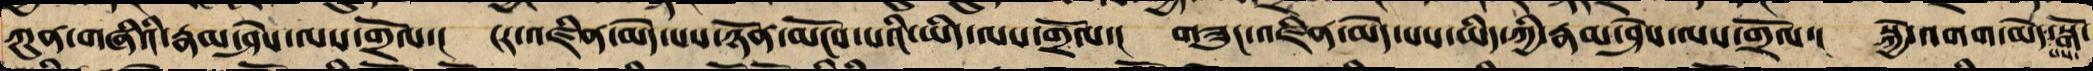ཀུན་གཞིའི་རྣམ་ཤེས་ལས་གྲོལ་། ངར་འཛིན་མེད་པས་ཉོན་མོངས་པའི་ཡིད་ལས་གྲོལ་། གཟུང་འཛིན་མེད་པས་ཡིད་ཀྱི་རྣམ་ཤེས་ལས་གྲོལ་། སྐྱེ་འགག་མེད་པས་སྒོ་
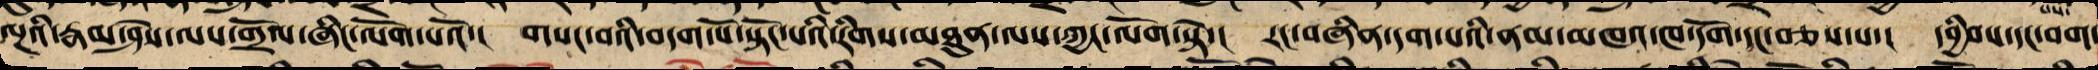ལྔའི་རྣམ་ཤེས་ལས་གྲོལ་ཞིང་ལོག་པའོ་། གསང་བའི་བདག་པོ་སྟོང་པའི་རིགས་མཐུན་ལས་ཀྱང་ལོག་སྟེ་། རང་བཞིན་དག་པའི་ནམ་མཁའ་ཁ་དོག་དང་བཅས་པ་། དབྱིབས་དང་བག་
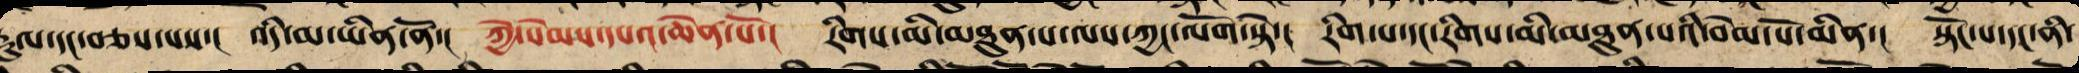རྡུལ་དང་བཅས་པས་། འདི་མ་ཡིན་ནོ་། ཀྱེ་སེམས་དཔའ་ཆེན་པོ་། རིགས་མི་མཐུན་པ་ལས་ཀྱང་ལོག་སྟེ་། རིག་པ་དང་རིགས་མི་མཐུན་པས་བེམ་པོ་མིན་། སྟོང་པ་དང་ནི་
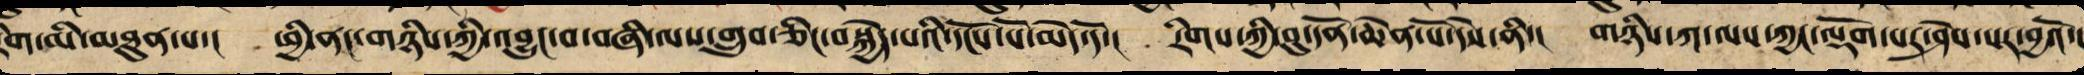རིག་མི་མཐུན་པས་། ཕྱི་ནང་གཉིས་ཀྱི་འབྱུང་བ་བཞི་ལས་གྲུབ་ཅིང་བསྐྱེད་པའི་དངོས་པོ་མེད་དོ་། རིགས་ཀྱི་བུ་དོན་ཆེན་པོ་དེས་ནི་། གཉིས་ཀ་ལས་ཀྱང་ལྡོག་པ་ཤེས་པར་བྱའོ་།
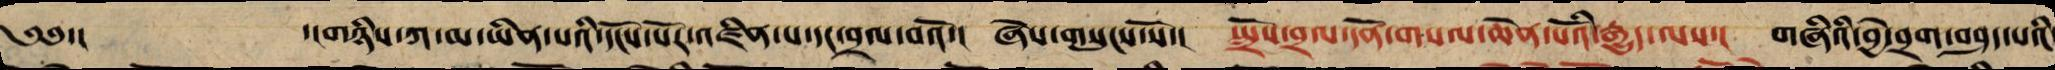༄༅་།  ་།གཉིས་ཀ་མ་ཡིན་པའི་དངོས་པོར་འཛིན་པ་དང་བྲལ་བའོ་། ཞེས་གསུངས་སོ་། སྤྲོས་བྲལ་དོན་གསལ་ཆེན་པོའི་རྒྱུད་ལས་། གཞིའི་བྱེ་བྲག་བཤད་པའི
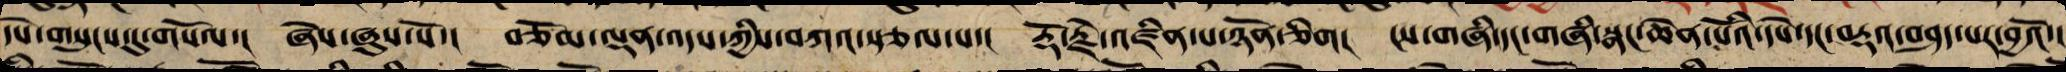དཔེ་གསུངས་དུ་གསོལ་། ཞེས་ཞུས་སོ་། བཅོམ་ལྡན་འདས་ཀྱིས་བཀའ་སྩལ་པ་། རྡོ་རྗེ་འཛིན་པ་ཁྱོད་ཉོན་ཅིག། ངས་གཞི་དང་གཞི་སྣང་ཆེན་པོ་དཔེ་དང་བརྡས་བཤད་པར་བྱའོ་།
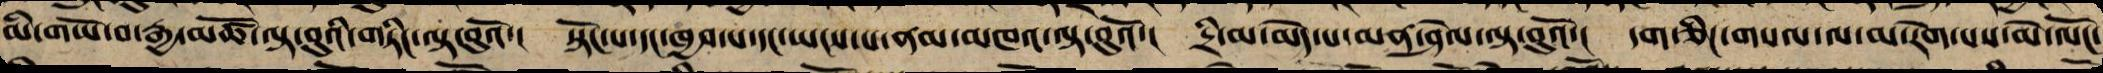མི་གཡོ་བ་རྒྱ་མཚོ་ལྟ་བུའི་གཏིང་ལྟ་བུའོ་། སྟོང་པ་དང་ཁྱབ་པ་དང་ཡངས་པ་ནམ་མཁའ་ལྟ་བུའོ་། དྲི་མ་མེད་པ་མན་ཤེལ་ལྟ་བུའོ་། དག་ཅིང་གསལ་ལ་མ་རེག་པས་མེ་ལོང་
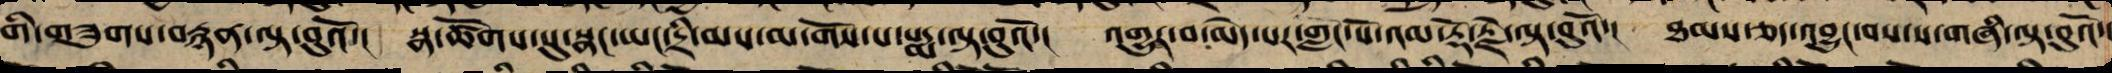གི་གཟུགས་བརྙན་ལྟ་བུའོ་། སྣ་ཚོགས་སུ་སྣང་ཡང་དྲི་མས་མ་གོས་པ་པདྨ་ལྟ་བུའོ་། འགྱུར་བ་མེད་པ་གླང་པོ་འམ་རྡོ་རྗེ་ལྟ་བུའོ་། ཐམས་ཅད་འབྱུང་བས་ས་གཞི་ལྟ་བུའོ་།
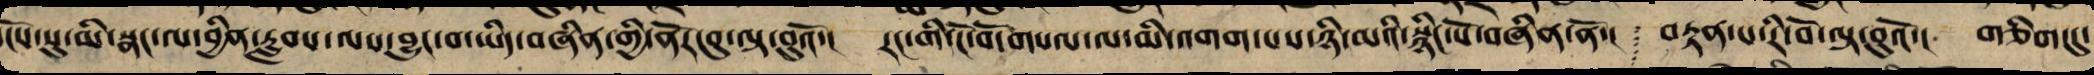ངོས་སུ་མི་སྣང་ལ་བྱིན་རླབས་ལས་འབྱུང་བ་ཡིད་བཞིན་གྱི་ནོར་བུ་ལྟ་བུའོ་། རང་གི་ངོ་བོ་གསལ་ལ་མི་འགག་པ་ཉི་མའི་སྙིང་པོ་བཞིན་ནོ་། བརྟན་པ་རི་བོ་ལྟ་བུའོ་། གཅིག་དུ་
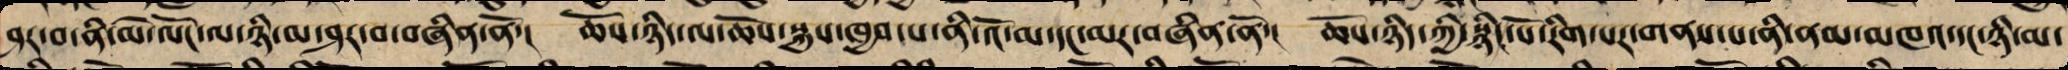ཤར་བ་ནི་མེ་ལོང་ལ་ཉི་མ་ཤར་བ་བཞིན་ནོ་། ཆོས་ཉིད་ལ་ཆོས་སྐུས་ཁྱབ་པ་ནི་འོ་མ་དང་མར་བཞིན་ནོ་། ཆོས་ཉིད་ཀྱི་སྙིང་པོ་རིག་པར་གནས་པ་ནི་ནམ་མཁའ་དང་ཉི་མ་
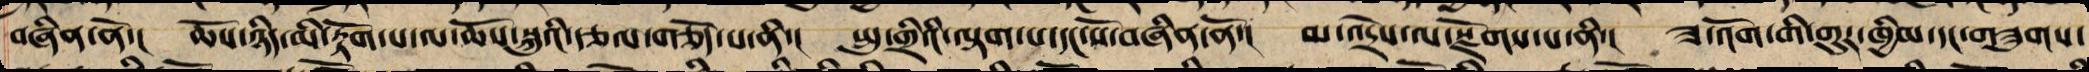བཞིན་ནོ་། ཆོས་ཉིད་མི་རྟོག་པ་ལ་ཆོས་སྐུའི་རྩལ་གཅོད་པ་ནི་། སྤུ་གྲིའི་ལྟག་པ་དང་སོ་བཞིན་ནོ་། མ་འདྲེས་པ་ལ་སྫོགས་པ་ནི་། ཟ་འོག་གི་གུར་ཁྱིམ་དང་གཟུགས་
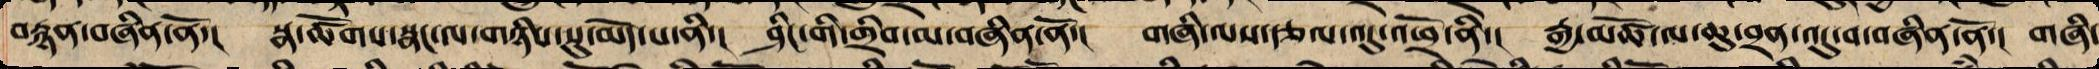བརྙན་བཞིན་ནོ་། སྣ་ཚོགས་སྣང་ལ་གཉིས་སུ་མེད་པ་ནི་། ཤིང་གི་གྲིབ་མ་བཞིན་ནོ་། གཞི་ལས་རྩལ་འདུ་འཕྲོ་ནི་། རྒྱ་མཚོ་ལ་ཆུ་བྲན་འདུ་བ་བཞིན་ནོ་། གཞི་
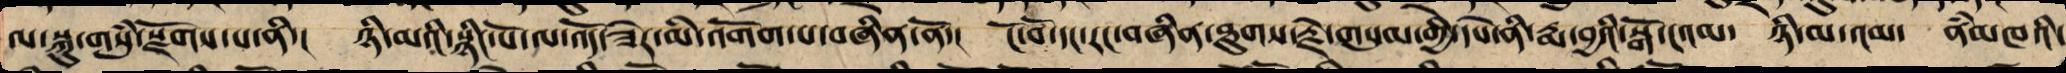ལ་སྐུ་གསུཾ་སྫོགས་པ་ནི་། ཉི་མའི་སྙིང་པོ་ལ་འོད་ཟེར་མི་འགོག་པ་བཞིན་ནོ་། ངོ་བོ་དང་རང་བཞིན་ཐུགས་རྗེ་གསུམ་གྱི་དཔེ་ནི་རྨ་བྱའི་སྒོ་ངའམ་ ཉི་མ་འམ་ ནཾམཁའི་
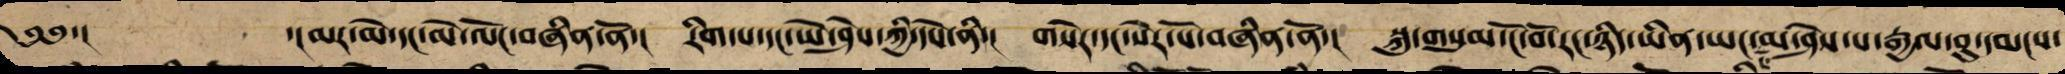༄༅་། ་།མར་མེ་དང་མེ་ལོང་བཞིན་ནོ་། རིག་པ་དང་ཡེ་ཤེས་ཀྱི་དཔེ་ནི་། གསེར་དང་སེར་པོ་བཞིན་ནོ་། སྐུ་གསུམ་ངོ་བོ་རང་ཉིད་ཡིན་ཡང་ངོ་མ་ཤེས་པ་རྒྱལ་བུ་དམངས་
